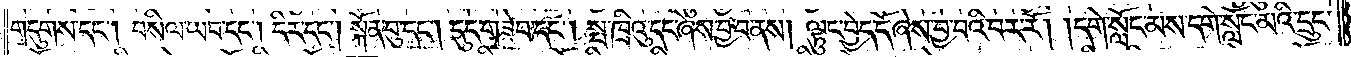གདུགས་དང༌། བསིལ་ཡབ་དང༌། དིར་དང༌། སྐོན་བུ་དང༌། དུད་གཟེབ་དང༌། སྤ་ཁྲིའུ་དང་ཞེས་བྱ་བ་ནས། ལྟུང་བྱེད་དོ་ཞེས་བྱ་བའི་བར་རོ། །དགེ་སློང་མས་དགེ་སློང་མའི་དྲུང་
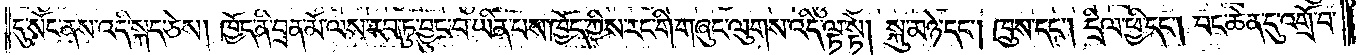དུ་སོང་ནས་འདི་སྐད་ཅེས། ཁྱོད་ནི་བྲན་མོ་ལས་རབ་ཏུ་བྱུང་བ་ཡིན་པས་ཁྱོད་ཀྱིས་རང་གི་གཞུང་ལུགས་འདི་ལྟ་སྟེ། སྐུ་མཉེ་དང༌། ཁྲུས་དང༌། དྲིལ་ཕྱི་དང༌། བང་ཆེན་དུ་འགྲོ་བ་
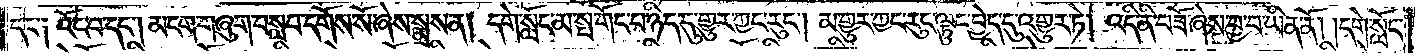དར༑ འོང་བ་དང༌། མངག་གཞུག་བསླབ་དགོས་སོ་ཞེས་སྨྲས་ན། དགེ་སློང་མ་སྤ་གསོང་བ་ཉིད་དུ་གྱུར་ཀྱང་རུང༌། མ་གྱུར་ཀྱང་རུང་ལྟུང་བྱེད་དུ་འགྱུར་ཏེ། འདི་ནི་བཟོ་ཞེས་བྱ་བ་ཡིན་ནོ། །དགེ་སློང་
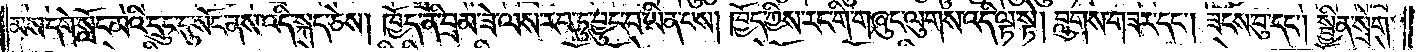མས་དགེ་སློང་མའི་དྲུང་དུ་སོང་ནས་འདི་སྐད་ཅེས། ཁྱོད་ནི་བྲམ་ཟེ་ལས་རབ་ཏུ་བྱུང་བ་ཡིན་པས། ཁྱོད་ཀྱིས་རང་གི་གཞུང་ལུགས་འདི་ལྟ་སྟེ། བླུགས་གཟར་དང༌། ཟངས་བུ་དང༌། སྦྱིན་སྲེག་
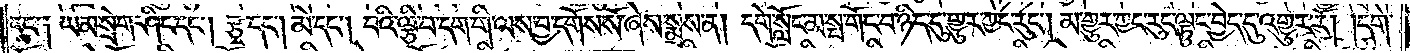དང་༑ ཡམ་སྲེག་ཤིང་དང༌། རྩྭ་དང༌། མེ་དང༌། བའི་ལྕི་བ་དག་གི་ལས་བྱ་དགོས་སོ་ཞེས་སྨྲས་ན། དགེ་སློང་མ་སྤ་གོང་བ་ཉིད་དུ་གྱུར་ཀྱང་རུང༌། མ་གྱུར་ཀྱང་རུང་ལྟུང་བྱེད་དུ་འགྱུར་རོ། །དགེ་
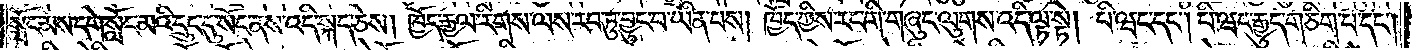སློང་མས་དགེ་སློང་མའི་དྲུང་དུ་སོང་ནས་འདི་སྐད་ཅེས། ཁྱོད་རྒྱལ་རིགས་ལས་རབ་ཏུ་བྱུང་བ་ཡིན་པས། ཁྱོད་ཀྱིས་རང་གི་གཞུང་ལུགས་འདི་ལྟ་སྟེ། པི་ཝང་དང༌། པི་ཝང་རྒྱུད་གཅིག་པ་དང༌།
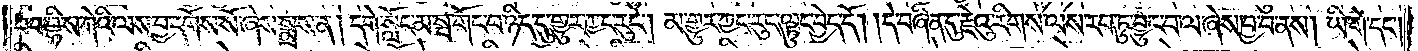བབ་བྷི་ས་ཀེའི་ལས་བྱ་དགོས་སོ་ཞེས་སྨྲས་ན། དགེ་སློང་མ་སྤ་གོང་བ་ཉིད་དུ་གྱུར་ཀྱང་རུང༌། མ་གྱུར་ཀྱང་རུང་ལྟུང་བྱེད་དོ། །དེ་བཞིན་དུ་རྗེའུ་རིགས་ལས་རབ་ཏུ་བྱུང་བ་ལ་ཞེས་བྱ་བ་ནས། ཡི་གེ་དང༌།
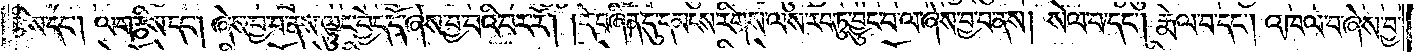རྩིས་དང༌། ལག་རྩིས་དང༌། ཞེས་བྱ་བ་ནས་ལྟུང་བྱེད་དོ་ཞེས་བྱ་བའི་བར་རོ། །དེ་བཞིན་དུ་དམངས་རིགས་ལས་རབ་ཏུ་བྱུང་བ་ལ་ཞེས་བྱ་བ་ནས། སེལ་བ་དང༌། རྨེལ་བ་དང༌། འཁལ་བ་ཞེས་བྱ་
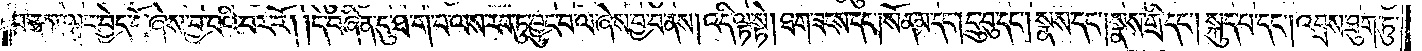བ་ནས་ལྟུང་བྱེད་དོ་ཞེས་བྱ་བའི་བར་རོ། །དེ་བཞིན་དུ་ཐ་ག་པ་ལས་རབ་ཏུ་བྱུང་བ་ལ་ཞེས་བྱ་བ་ནས། འདི་ལྟ་སྟེ། ཐག་ཟངས་དང་སོན་མ་དང༌། དྲུ་བུ་དང༌། སྣས་དང༌། སྣས་གྲི་དང༌། སྐུད་པ་དང༌། འབྲས་ཐུག་ཏུ་
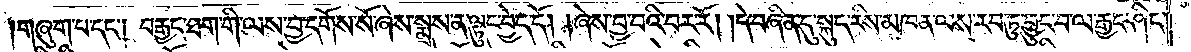།གཞུག་པ་དང༌། བརྒྱང་ཐག་གི་ལས་བྱ་དགོས་སོ་ཞེས་སྨྲས་ན་ལྟུང་བྱེད་དོ། །ཞེས་བྱ་བའི་བར་རོ། །དེ་བཞིན་དུ་སྐུད་རིས་མཁན་ལས་རབ་ཏུ་བྱུང་བ་ལ་རྒྱང་ཤིང་
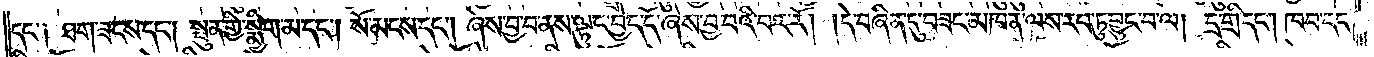དང་༑ ཐག་ཟངས་དང༌། སྤུན་གྱི་སྨྱིག་མ་དང༌། སོ་མངས་དང༌། ཞེས་བྱ་བ་ནས་ལྟུང་བྱེད་དོ་ཞེས་བྱ་བའི་བར་རོ། །དེ་བཞིན་དུ་བཟང་མཁན་ལས་རབ་ཏུ་བྱུང་བ་ལ། དྲ་གྲི་དང༌། ཁབ་དང༌།
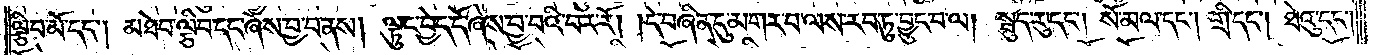ལྕིབ་མོ་དང༌། མཐེབ་ལྕིབ་དང་ཞེས་བྱ་བ་ནས། ལྟུང་བྱེད་དོ་ཞེས་བྱ་བའི་བར་རོ། །དེ་བཞིན་དུ་མགར་བ་ལས་རབ་ཏུ་བྱུང་བ་ལ། སྦུད་རུ་དང༌། སོ་མལ་དང༌། གྲི་དང༌། ཐེའུ་དང༌།
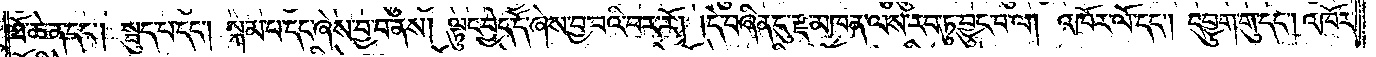ཐོ་ཆེན་དང༌། སྦུད་པ་དང༌། སྐམ་པ་དང་ཞེས་བྱ་བ་ནས། ལྟུང་བྱེད་དོ་ཞེས་བྱ་བའི་བར་རོ། །དེ་བཞིན་དུ་རྫ་མཁན་ལས་རབ་ཏུ་བྱུང་བ་ལ། འཁོར་ལོ་དང༌། དབྱུག་གུ་དང༌། འཁོར་
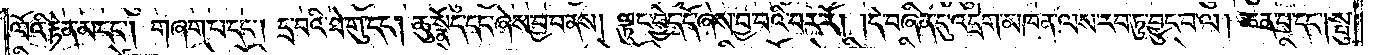ལོའི་རྟེན་མ་དང༌། གཞག་པ་དང༌། དྲ་བའི་ཐེ་གུ་དང༌། ཆུ་སྣོད་དང་ཞེས་བྱ་བ་ནས། ལྟུང་བྱེད་དོ་ཞེས་བྱ་བའི་བར་རོ། །དེ་བཞིན་དུ་འདྲེག་མཁན་ལས་རབ་ཏུ་བྱུང་བ་ལ། ཆན་པ་དང༌། སྤུ་
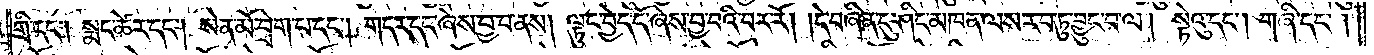གྲི་དང༌། སྨད་ཚེར་དང༌། སེན་མོ་བྲེག་པ་དང༌། གདར་དང་ཞེས་བྱ་བ་ནས། ལྟུང་བྱེད་དོ་ཞེས་བྱ་བའི་བར་རོ། །དེ་བཞིན་དུ་ཤིང་མཁན་ལས་རབ་ཏུ་བྱུང་བ་ལ། སྟེའུ་དང༌། གཞི་དང༌།
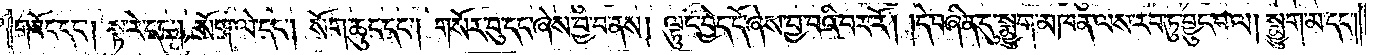གཟོང་དང༌། སྟ་རེ་དང༌། སོག་ལེ་དང༌། སོག་ཆུང་དང༌། གསོར་བུ་དང་ཞེས་བྱ་བ་ནས། ལྟུང་བྱེད་དོ་ཞེས་བྱ་བའི་བར་རོ། །དེ་བཞིན་དུ་སྨྱུག་མཁན་ལས་རབ་ཏུ་བྱུང་བ་ལ། སྨྱུག་མ་དང༌།
